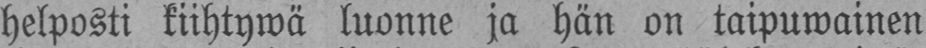helposti kiihtywä luonne ja hän on taipuwainen
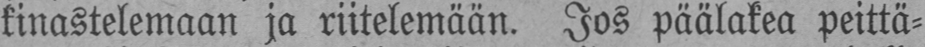kinastelemaan ja riitelemään. Jos päälakea peittä-
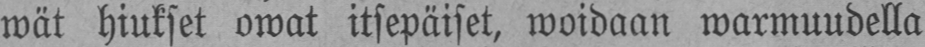wät hiukset owat itsepäiset, woidaan warmuudella
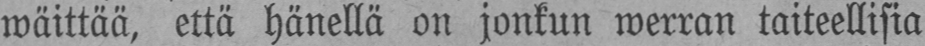wäittää, että hänellä on jonkun werran taiteellisia
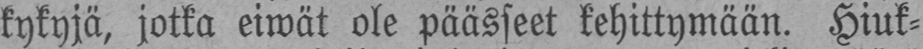kykyjä, jotka eiwät ole päässeet kehittymään. Hiuk-
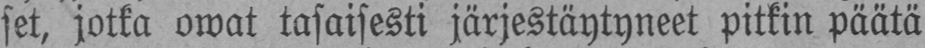set, jotka owat tasaisesti järjestäytyneet pitkin päätä
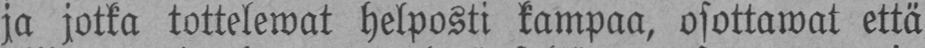ja jotka tottelewat helposti kampaa, osottawat että
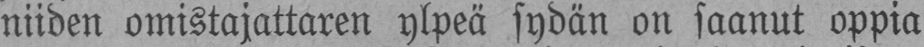niiden omistajattaren ylpeä sydän on saanut oppia
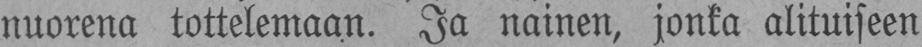nuorena tottelemaan. Ja nainen, jonka alituiseen
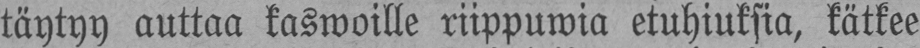täytyy auttaa kaswoille riippuwia etuhiuksia, kätkee
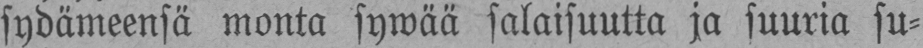sydämeensä monta sywää salaisuutta ja suuria su-
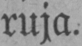ruja.
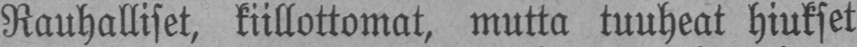Rauhalliset, kiillottomat, mutta tuuheat hiukset
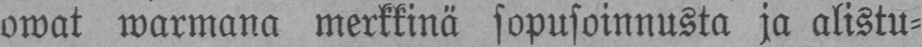owat warmana merkkinä sopusoinnusta ja alistu-
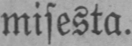misesta.
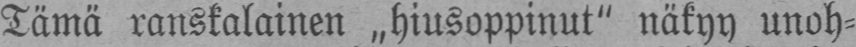Tämä ranskalainen „hiusoppinut" näkyy unoh-
